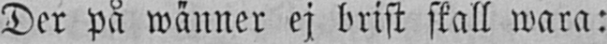Der på wänner ej brist skall wara:
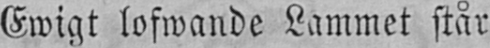Ewigt lofwande Lammet står
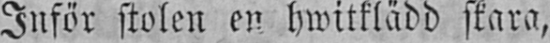Inför stolen en hwitklädd skara,
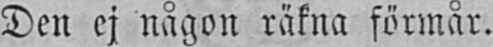Den ej någon räkna förmår.
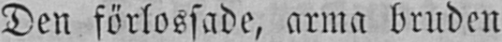Den förlossade, arma bruden
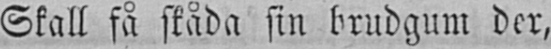Skall få skåda sin brudgum der,
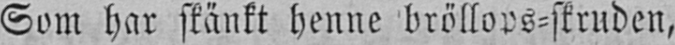Som har skänkt henne bröllops-skruden,
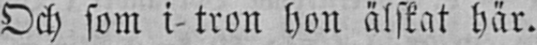Och som i-tron hon älskat här.
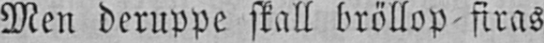Men deruppe skall bröllop firas
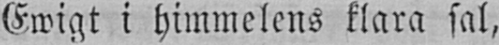Ewigt i himmelens klara sal,
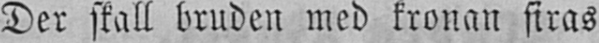Der skall bruden med kronan firas
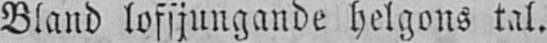Bland lofsjungande helgons tal.
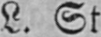L. St.
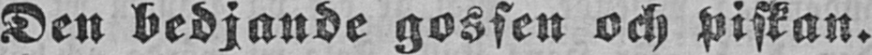Den bedjande gossen och piskan.
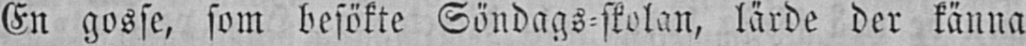En gosse, som besökte Söndags-skolan, lärde der känna
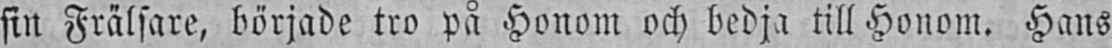sin Frälsare, började tro på Honom och bedja till Honom. Hans
